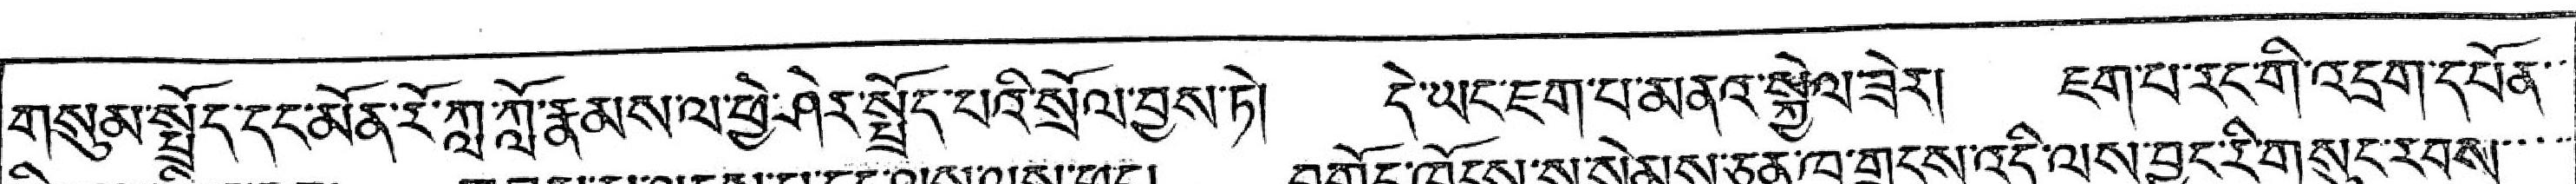གསུམ་སྤྲོད་དང་མོན་རོ་ཀླ་ཀློ་རྣམས་ལ་ཕྱེ་ཤེར་སྤྲོད་པའི་སྲོལ་བྱས་ཏེ། དེ་ཡང་ཇག་པ་མནའ་སྐྱེལ་ཟེར། ཇག་པ་རང་གི་འདྲག་དཔོན་་
